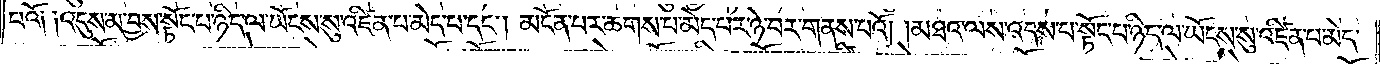པའོ། །འདུས་མ་བྱས་སྟོང་པ་ཉིད་ལ་ཡོངས་སུ་འཛིན་པ་མེད་པ་དང༌། མངོན་པར་ཆགས་པ་མེད་པར་ཉེ་བར་གནས་པའོ། །མཐའ་ལས་འདས་པ་སྟོང་པ་ཉིད་ལ་ཡོངས་སུ་འཛིན་པ་མེད་
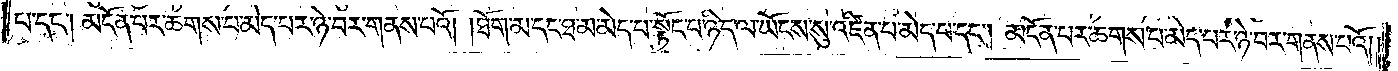པ་དང༌། མངོན་པར་ཆགས་པ་མེད་པར་ཉེ་བར་གནས་པའོ། །ཐོག་མ་དང་ཐ་མ་མེད་པ་སྟོང་པ་ཉིད་ལ་ཡོངས་སུ་འཛིན་པ་མེད་པ་དང༌། མངོན་པར་ཆགས་པ་མེད་པར་ཉེ་བར་གནས་པའོ། །
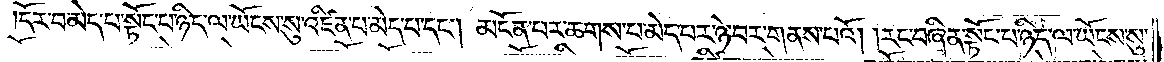དོར་བ་མེད་པ་སྟོང་པ་ཉིད་ལ་ཡོངས་སུ་འཛིན་པ་མེད་པ་དང༌། མངོན་པར་ཆགས་པ་མེད་པར་ཉེ་བར་གནས་པའོ། །རང་བཞིན་སྟོང་པ་ཉིད་ལ་ཡོངས་སུ་
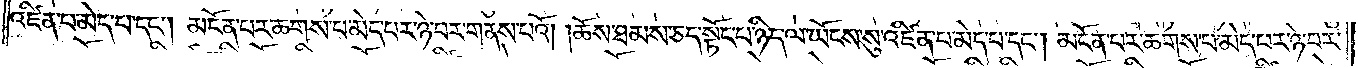འཛིན་པ་མེད་པ་དང༌། མངོན་པར་ཆགས་པ་མེད་པར་ཉེ་བར་གནས་པའོ། །ཆོས་ཐམས་ཅད་སྟོང་པ་ཉིད་ལ་ཡོངས་སུ་འཛིན་པ་མེད་པ་དང༌། མངོན་པར་ཆགས་པ་མེད་པར་ཉེ་བར་
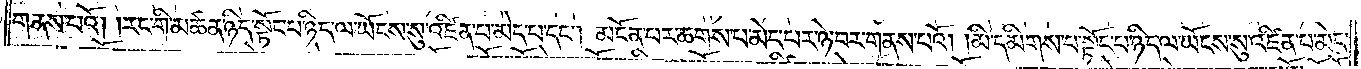གནས་པའོ། །རང་གི་མཚན་ཉིད་སྟོང་པ་ཉིད་ལ་ཡོངས་སུ་འཛིན་པ་མེད་པ་དང༌། མངོན་པར་ཆགས་པ་མེད་པར་ཉེ་བར་གནས་པའོ། །མི་དམིགས་པ་སྟོང་པ་ཉིད་ལ་ཡོངས་སུ་འཛིན་པ་མེད་
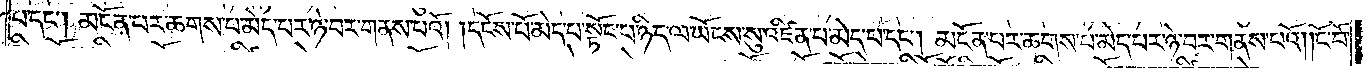པ་དང༌། མངོན་པར་ཆགས་པ་མེད་པར་ཉེ་བར་གནས་པའོ། །དངོས་པོ་མེད་པ་སྟོང་པ་ཉིད་ལ་ཡོངས་སུ་འཛིན་པ་མེད་པ་དང༌། མངོན་པར་ཆགས་པ་མེད་པར་ཉེ་བར་གནས་པའོ། །ངོ་བོ་
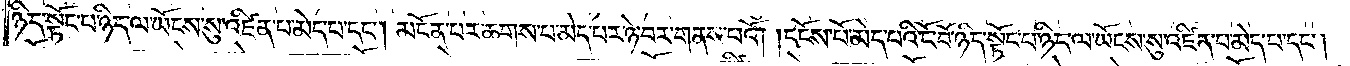ཉིད་སྟོང་པ་ཉིད་ལ་ཡོངས་སུ་འཛིན་པ་མེད་པ་དང༌། མངོན་པར་ཆགས་པ་མེད་པར་ཉེ་བར་གནས་པའོ། །དངོས་པོ་མེད་པའི་ངོ་བོ་ཉིད་སྟོང་པ་ཉིད་ལ་ཡོངས་སུ་འཛིན་པ་མེད་པ་དང༌།
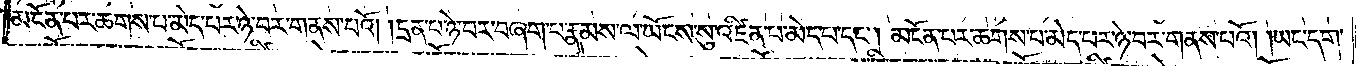མངོན་པར་ཆགས་པ་མེད་པར་ཉེ་བར་གནས་པའོ། །དྲན་པ་ཉེ་བར་བཞག་པ་རྣམས་ལ་ཡོངས་སུ་འཛིན་པ་མེད་པ་དང༌། མངོན་པར་ཆགས་པ་མེད་པར་ཉེ་བར་གནས་པའོ། །ཡང་དག་
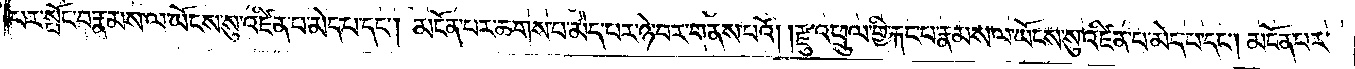པར་སྤོང་བ་རྣམས་ལ་ཡོངས་སུ་འཛིན་པ་མེད་པ་དང༌། མངོན་པར་ཆགས་པ་མེད་པར་ཉེ་བར་གནས་པའོ། །རྫུ་འཕྲུལ་གྱི་རྐང་པ་རྣམས་ལ་ཡོངས་སུ་འཛིན་པ་མེད་པ་དང༌། མངོན་པར་
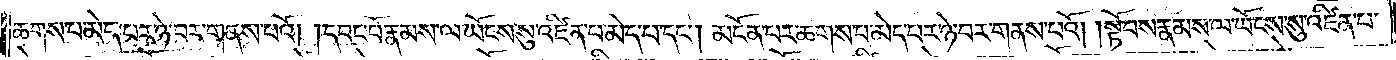ཆགས་པ་མེད་ཕར་ཉེ་བར་གནས་པའོ། །དབང་པོ་རྣམས་ལ་ཡོངས་སུ་འཛིན་པ་མེད་པ་དང༌། མངོན་པར་ཆགས་པ་མེད་པར་ཉེ་བར་གནས་པའོ། །སྟོབས་རྣམས་ལ་ཡོངས་སུ་འཛིན་པ་
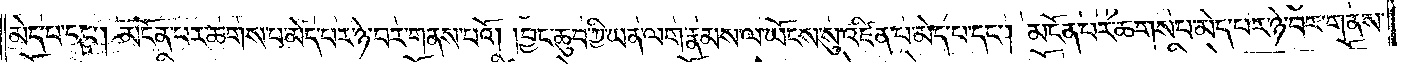མེད་པ་དང༌། མངོན་པར་ཆགས་པ་མེད་པར་ཉེ་བར་གནས་པའོ། །བྱང་ཆུབ་ཀྱི་ཡན་ལག་རྣམས་ལ་ཡོངས་སུ་འཛིན་པ་མེད་པ་དང༌། མངོན་པར་ཆགས་པ་མེད་པར་ཉེ་བར་གནས་
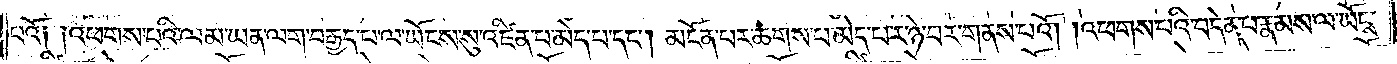པའོ། །འཕགས་པའི་ལམ་ཡན་ལག་བརྒྱད་པ་ལ་ཡོངས་སུ་འཛིན་པ་མེད་པ་དང༌། མངོན་པར་ཆགས་པ་མེད་པར་ཉེ་བར་གནས་པའོ། །འཕགས་པའི་བདེན་པ་རྣམས་ལ་ཡོངས་
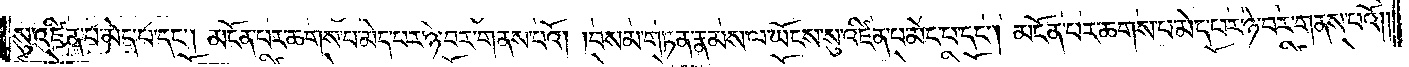སུ་འཛིན་པ་མེད་པ་དང༌། མངོན་པར་ཆགས་པ་མེད་པར་ཉེ་བར་གནས་པའོ། །བསམ་གཏན་རྣམས་ལ་ཡོངས་སུ་འཛིན་པ་མེད་པ་དང༌། མངོན་པར་ཆགས་པ་མེད་པར་ཉེ་བར་གནས་པའོ། །
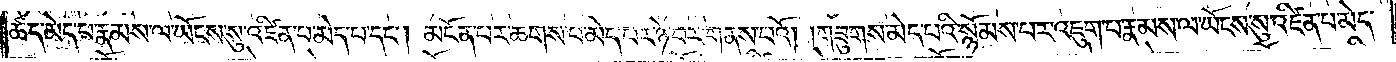ཚད་མེད་པ་རྣམས་ལ་ཡོངས་སུ་འཛིན་པ་མེད་པ་དང༌། མངོན་པར་ཆགས་པ་མེད་པར་ཉེ་བར་གནས་པའོ། །གཟུགས་མེད་པའི་སྙོམས་པར་འཇུག་པ་རྣམས་ལ་ཡོངས་སུ་འཛིན་པ་མེད་
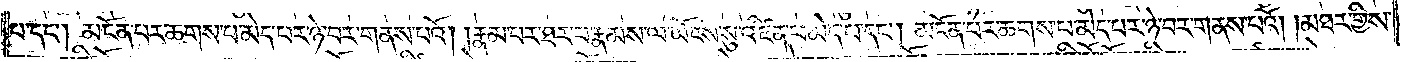པ་དང༌། མངོན་པར་ཆགས་པ་མེད་པར་ཉེ་བར་གནས་པའོ། །རྣམ་པར་ཐར་པ་རྣམས་ལ་ཡོངས་སུ་འཛིན་པ་མེད་པ་དང༌། མངོན་པར་ཆགས་པ་མེད་པར་ཉེ་བར་གནས་པའོ། །མཐར་གྱིས་
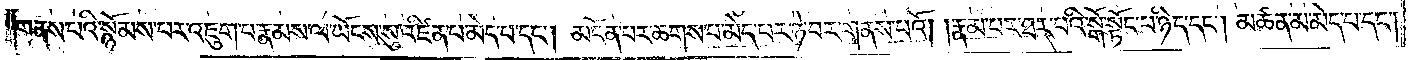གནས་པའི་སྙོམས་པར་འཇུག་པ་རྣམས་ལ་ཡོངས་སུ་འཛིན་པ་མེད་པ་དང༌། མངོན་པར་ཆགས་པ་མེད་པར་ཉེ་བར་གནས་པའོ། །རྣམ་པར་ཐར་པའི་སྒོ་སྟོང་པ་ཉིད་དང༌། མཚན་མ་མེད་པ་དང༌།
